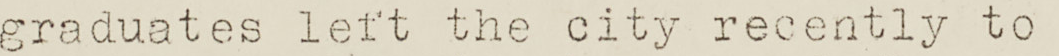graduates left the city recently to
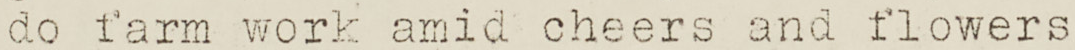do farm work amid cheers and flowers
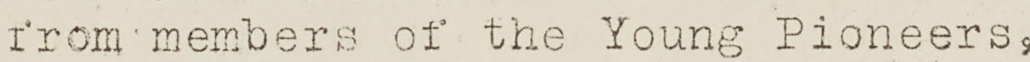from members of the Young Pioneers,
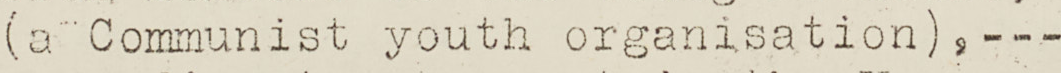(a Communist youth organisation), ---
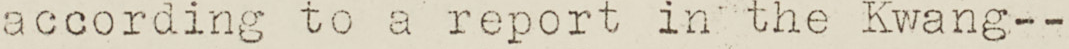according to a report in the Kwang--
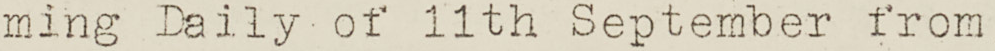ming Daily of 11th September from
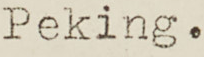Peking.
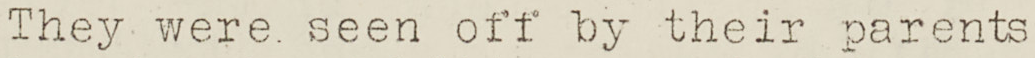They were seen off by their parents
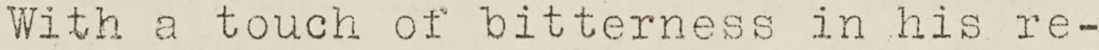With a touch of bitterness in his re-
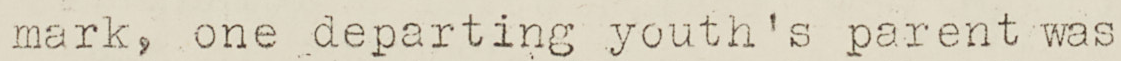mark, one departing youth's parent was
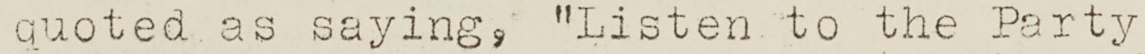quoted as saying, "Listen to the Party
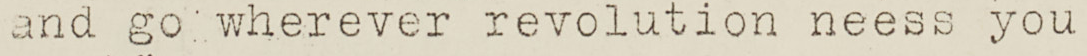and go wherever revolution neess you
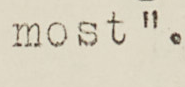most".
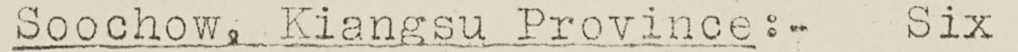Soochow, Kiangsu Province:- Six
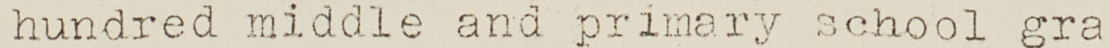hundred middle and primary school gra
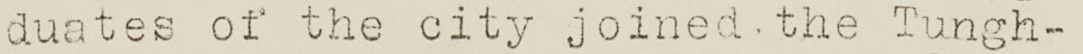duates of the city joined the Tungh-
